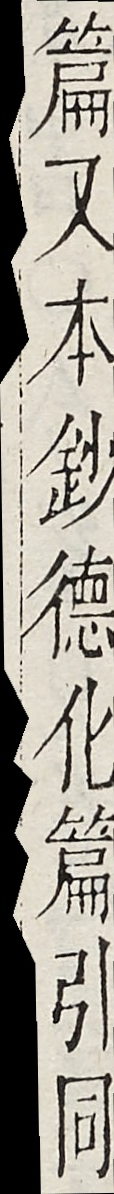篇又本鈔德化篇引同
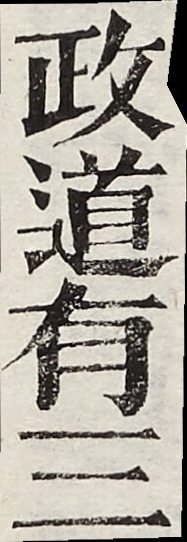政道有三
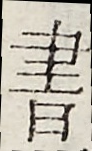書
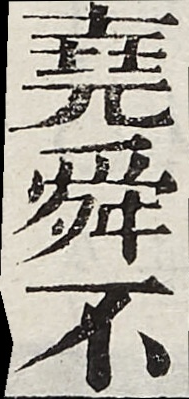堯舜不
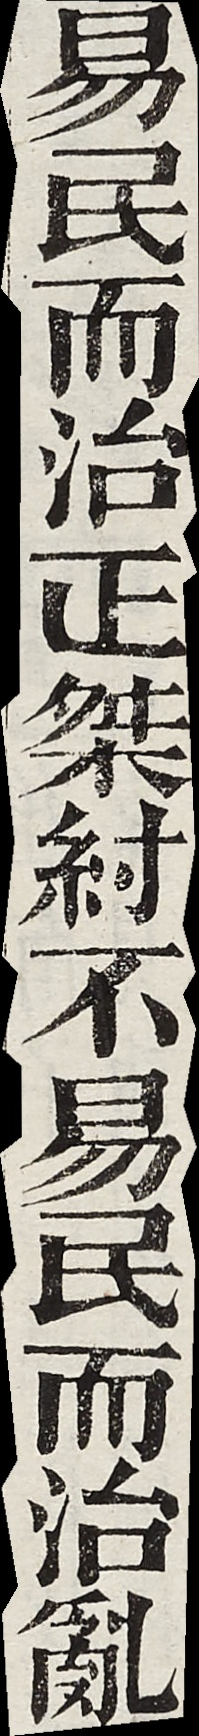易民而治正桀紂不易民而治亂
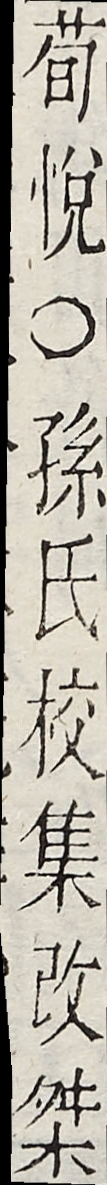荀悅○孫氏校集改桀
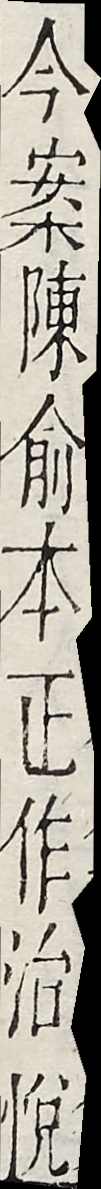今案陳俞本正作治說
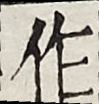作
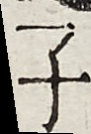子
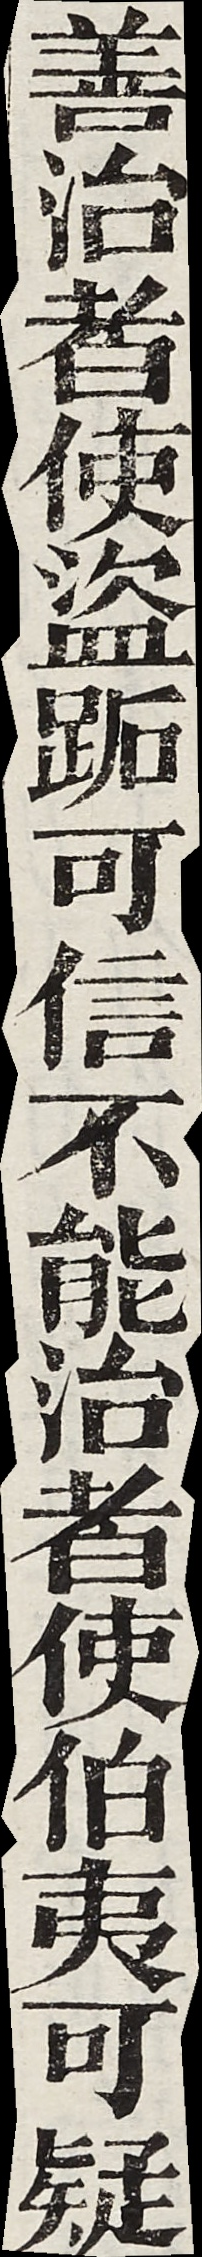善治者使盜跖可信不能治者使伯夷可疑
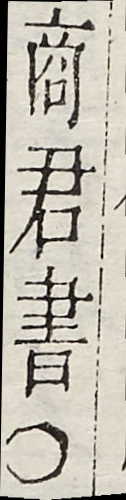商君書○
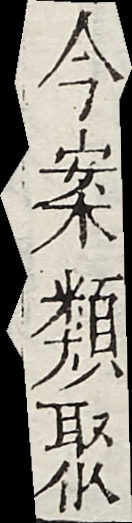今案類聚
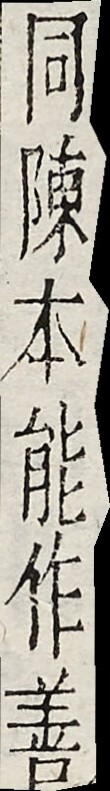同陳本能作善
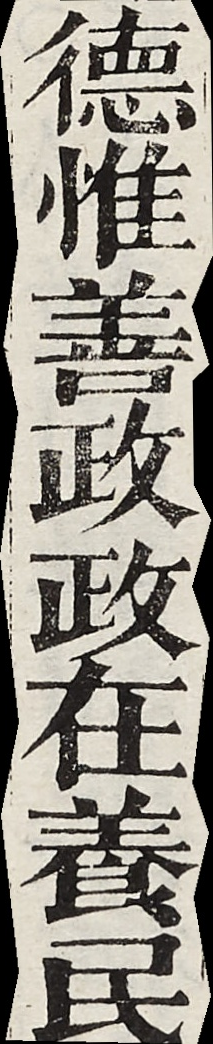德惟善政政在養民
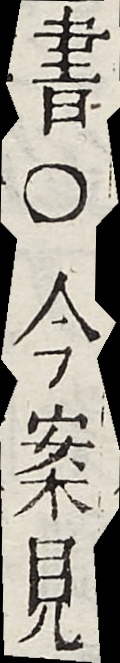書○今案見
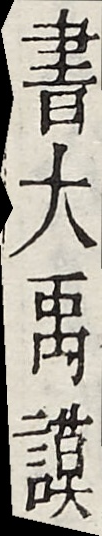書大禹謨
